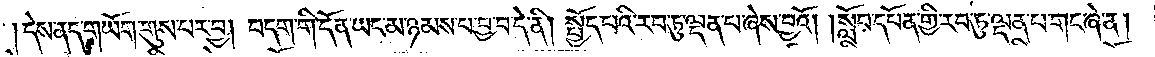དེས་ནད་གཡོག་གུས་པར་བྱ། བདག་གི་དོན་ཡང་མ་ཉམས་པ་བྱ་བ་དེ་ནི། སྤྱོད་པའི་རབ་ཏུ་ལྡན་པ་ཞེས་བྱའོ། །སློབ་དཔོན་གྱི་རབ་ཏུ་ལྡན་པ་གང་ཞེ་ན།
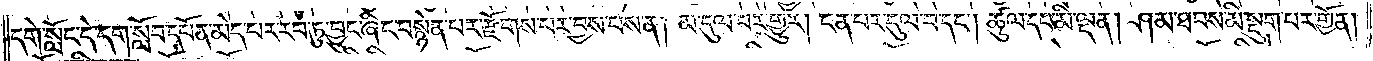དགེ་སློང་དེ་དག་སློབ་དཔོན་མེད་པར་རབ་ཏུ་བྱུང་ཞིང་བསྙེན་པར་རྫོགས་པར་བྱས་པས་ན། མ་དུལ་བར་གྱུར། ངན་པར་དུལ་བ་དང༌། ཚུལ་དང་མི་ལྡན། ཤམ་ཐབས་མི་སྡུག་པར་གྱོན།
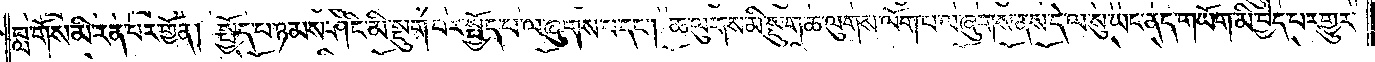བླ་གོས་མི་རན་པར་གྱོན། སྤྱོད་པ་ཉམས་ཤིང་མི་སྡུག་པར་སྤྱོད་པ་ལ་ཞུགས་པ་དང༌། ཆ་ལུགས་མི་སྡུག་ཆ་ལུགས་ལོག་པ་ལ་ཞུགས་ནས་དེ་ལ་སུ་ཡང་ནད་གཡོག་མི་བྱེད་པར་གྱུར་
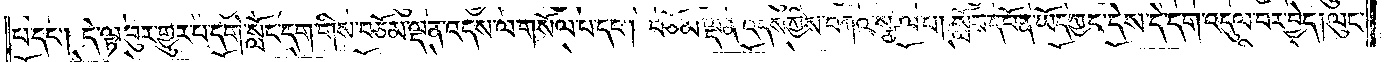པ་དང༌། དེ་ལྟ་བུར་གྱུར་པ་དགེ་སློང་དག་གིས་བཅོམ་ལྡན་འདས་ལ་གསོལ་པ་དང༌། བཅོམ་ལྡན་འདས་ཀྱིས་བཀའ་སྩལ་པ། སློབ་དཔོན་ཡོད་ཀྱང་དེས་དེ་དག་འདུལ་བར་བྱེད། ལུང་
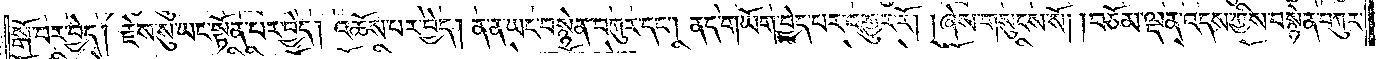སྒོ་བར་བྱེད། རྗེས་སུ་ཡང་སྟོན་པར་བྱེད། འཆོས་པར་བྱེད། ན་ན་ཡང་བསྙེན་བཀུར་དང༌། ནད་གཡོག་བྱེད་པར་འགྱུར་རོ། །ཞེས་གསུངས་སོ། །བཅོམ་ལྡན་འདས་ཀྱིས་བསྙེན་བཀུར་
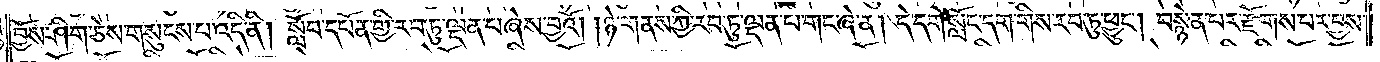བྱོས་ཤིག་ཅེས་གསུངས་པ་འདི་ནི། སློབ་དཔོན་གྱི་རབ་ཏུ་ལྡན་པ་ཞེས་བྱའོ། །ཉེ་གནས་ཀྱི་རབ་ཏུ་ལྡན་པ་གང་ཞེ་ན། དེ་དགེ་སློང་དག་གིས་རབ་ཏུ་ཕྱུང༌། བསྙེན་པར་རྫོགས་པར་བྱས་
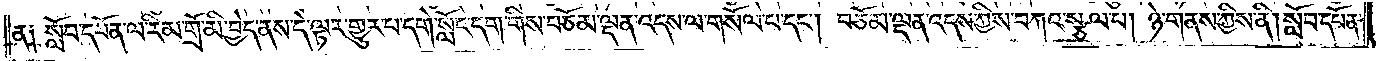ན༑ སློབ་དཔོན་ལ་རིམ་གྲོ་མི་བྱེད་ནས་དེ་ལྟར་གྱུར་པ་དགེ་སློང་དག་གིས་བཅོམ་ལྡན་འདས་ལ་གསོལ་པ་དང༌། བཅོམ་ལྡན་འདས་ཀྱིས་བཀའ་སྩལ་པ། ཉེ་གནས་ཀྱིས་ནི། སློབ་དཔོན་
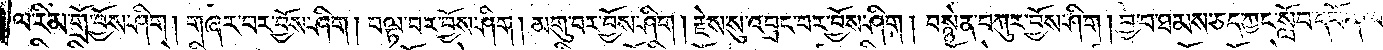ལ་རིམ་གྲོ་བྱོས་ཤིག །གཞར་བར་བྱོས་ཤིག །བལྟ་བར་བྱོས་ཤིག །མགུ་བར་བྱོས་ཤིག །རྗེས་སུ་འབྲང་བར་བྱོས་ཤིག །བསྙེན་བཀུར་བྱོས་ཤིག །བྱ་བ་ཐམས་ཅད་ཀྱང་སློབ་དཔོན་ལ་
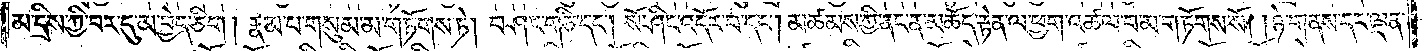མ་དྲིས་ཀྱི་བར་དུ་མ་བྱེད་ཅིག །རྣམ་པ་གསུམ་མ་གཏོགས་ཏེ། བཤང་གཅི་དང༌། སོ་ཤིང་འདོར་བ་དང༌། མཚམས་ཀྱི་ནང་ན་མཆོད་རྟེན་ལ་ཕྱག་འཚལ་བ་མ་གཏོགས་སོ། །ཉེ་གནས་དང་ལྡན་
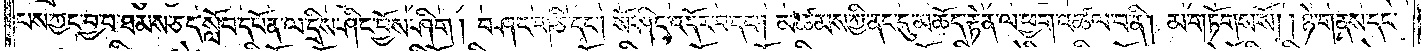པས་ཀྱང་བྱ་བ་ཐམས་ཅད་སློབ་དཔོན་ལ་དྲིས་ཤིང་བྱོས་ཤིག །བཤང་གཅི་དང༌། སོ་ཤིང་འདོར་བ་དང༌། མཚམས་ཀྱི་ནང་དུ་མཆོད་རྟེན་ལ་ཕྱག་འཚལ་བ་ནི། མ་གཏོགས་སོ། །ཉེ་གནས་དང་
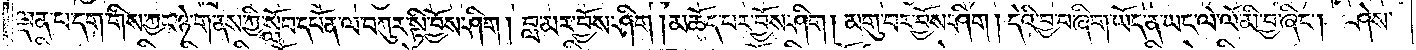ལྡན་པ་དག་གིས་ཀྱང་ཉེ་གནས་ཀྱི་སློབ་དཔོན་ལ་བཀུར་སྟི་བྱོས་ཤིག །བླ་མར་བྱོས་ཤིག །མཆོད་པར་བྱོས་ཤིག། མགུ་བར་བྱོས་ཤིག། དེའི་བྱ་བ་ཞིག་ཡོད་ན་ཡང་ལེ་ལོ་མི་བྱ་ཞིང༌། ཤེས་
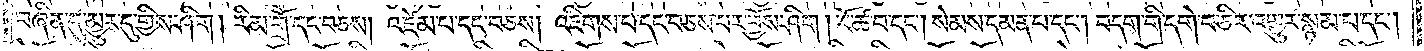བཞིན་དུ་མྱུར་དུ་གྱིས་ཤིག། རིམ་གྲོ་དང་བཅས། འཛེམ་པ་དང་བཅས། འཇིགས་པ་དང་བཅས་པར་བྱོས་ཤིག། ངོ་ཚ་བ་དང༌། སེམས་དམན་པ་དང༌། བདག་གི་དགེ་བ་ཅིར་འགྱུར་སྙམ་པ་དང༌།
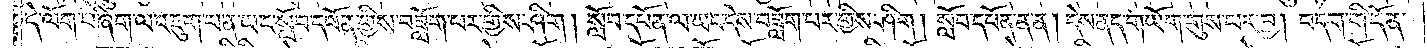དེ་ལོག་པ་ཞིག་ལ་འཇུག་པ་ན་ཡང་སློབ་དཔོན་གྱིས་བཟློག་པར་གྱིས་ཤིག། སློབ་དཔོན་ལ་ཡང་དེས་བཟློག་པར་གྱིས་ཤིག། སློབ་དཔོན་ན་ན། དེས་ནད་གཡོག་གུས་པར་བྱ། བདག་གི་དོན་
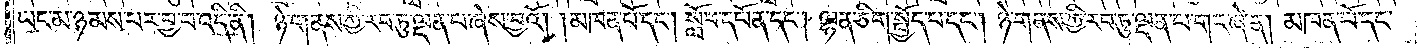ཡང་མ་ཉམས་པར་བྱ་བ་འདི་ནི། ཉེ་གནས་ཀྱི་རབ་ཏུ་ལྡན་པ་ཞེས་བྱའོ། །མཁན་པོ་དང༌། སློབ་དཔོན་དང༌། ལྷན་ཅིག་སྤྱོད་པ་དང༌། ཉེ་གནས་ཀྱི་རབ་ཏུ་ལྡན་པ་གང་ཞེ་ན། མཁན་པོ་དང་
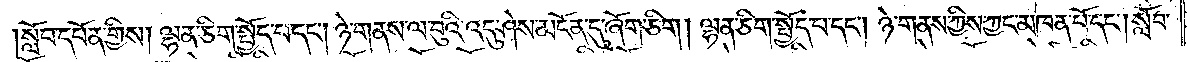སློབ་དཔོན་གྱིས། ལྷན་ཅིག་སྤྱོད་པ་དང༌། ཉེ་གནས་ལ་བུའི་འདུ་ཤེས་མངོན་དུ་ཞོག་ཅིག། ལྷན་ཅིག་སྤྱོད་པ་དང༌། ཉེ་གནས་ཀྱིས་ཀྱང་མཁན་པོ་དང༌། སློབ་
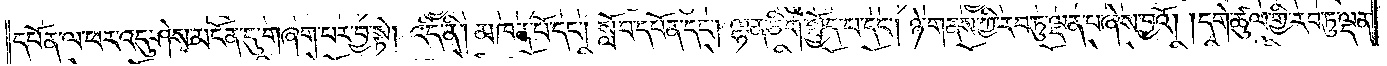དཔོན་ལ་ཕར་འདུ་ཤེས་མངོན་དུ་གཞག་པར་བྱ་སྟེ། འདི་ནི། མཁན་པོ་དང༌། སློབ་དཔོན་དང༌། ལྷན་ཅིག་སྤྱོད་པ་དང༌། ཉེ་གནས་ཀྱི་རབ་ཏུ་ལྡན་པ་ཞེས་བྱའོ། །དགེ་ཚུལ་གྱི་རབ་ཏུ་ལྡན་
